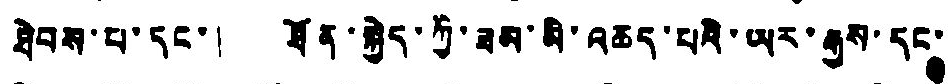ཐེབས་པ་དང་། ཐོན་སྐྱེད་ཀྱི་ཟམ་མི་འཆད་པའི་ཡར་རྒྱས་དང་
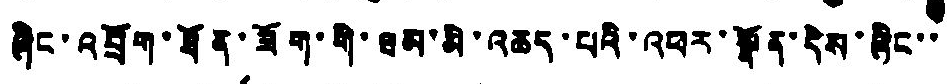ཞིང་འབྲོག་ཐོན་ཟོག་གི་ཟམ་མི་འཆད་པའི་འཕར་སྣོན་དེས་ཞིང་་
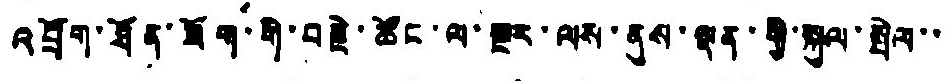འབྲོག་ཐོན་ཟོག་གི་བརྗེ་ཚོང་ལ་སྔར་ལས་ནུས་སྡན་གྱི་སྐྱལ་སྤེལ་་
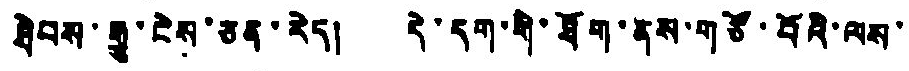ཐེབས་རྒྱུ་ངེས་ཅན་རེད། དེ་དག་གི་ཐོག་ནས་གཙོ་བོའི་ལས་
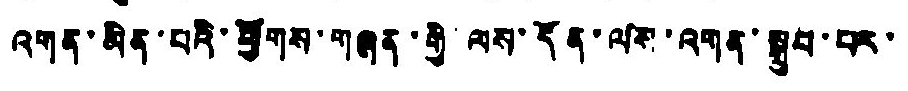འགན་མིན་པའི་ཕྱོགས་གཞན་གྱི ལས་དོན་ལས་འགན་སྒྲུབ་པར་་
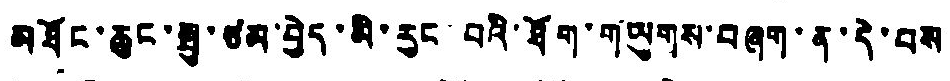མཐོང་ཆུང་སྤུ་ཙམ་བྱེད་མི་རུང་བའི་ཐོག་གཡུགས་བཞག་ན་དེ་བས
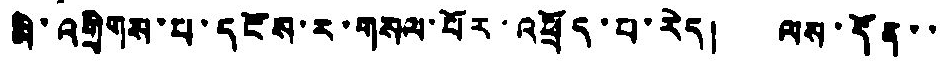མི་འགྲིགས་པ་དངོས་ར་གསལ་པོར་འཕྲོད་པ་རེད། ལས་དོན་་
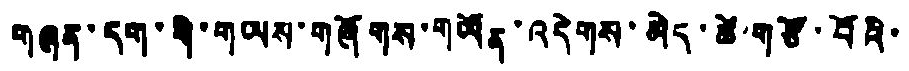གཞན་དག་གི་གཡས་གཞོགས་གཡོན་འདེགས་མེད་ཚེ་གཙོ་བོའི་་
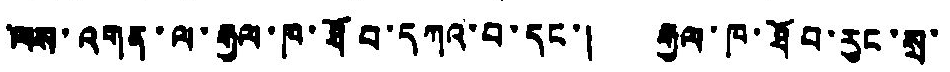ལས་འགན་ལ་རྒྱལ་ཁ་ཐོབ་དཀའ་བ་དང་། རྒྱལ་ཁ་ཐོབ་རུང་སྲ་
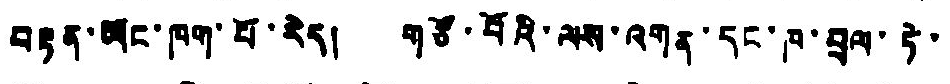བརྟན་ཡོང་ཁག་པོ་རེད། གཙོ་བོའི་ལས་འགན་དང་ཁ་བྲལ་ཏེ་
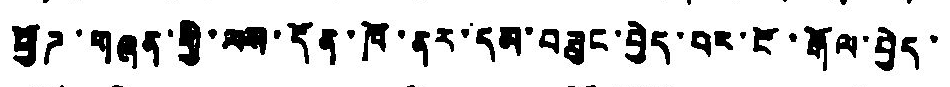ཕྱོཌ་གཞན་གྱི་ལས་དོན་ཁོ་ནར་དམ་བཟུང་བྱེད་པར་ངོ་རྒོལ་བྱེད་
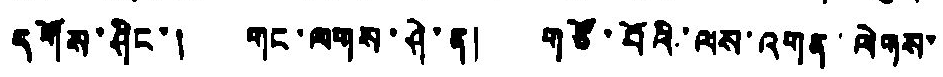དགོས་ཤིང་། གང་ལགས་ཤེ་ན། གཙོ་བོའི་ལས་འགན་ལེགས་
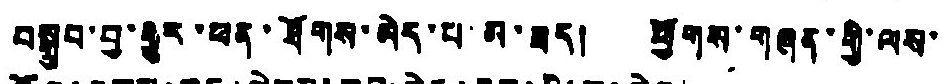བསྒྲུབ་བྱ་རྒྱུར་ཕན་ཐོགས་མེད་པ་མ་ཟད། ཕྱུགས་གཞན་གྱི་ལས་
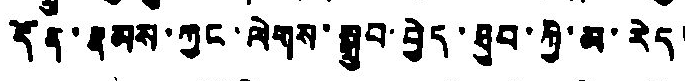དོན་རྣམས་ཀྱང་ལེགས་སྒྲུབ་བྱེད་ཐུབ་ཀྱི་མ་རེད།
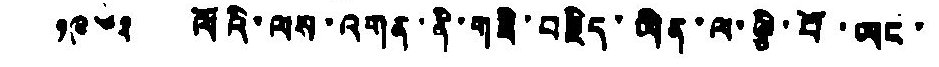༡༩༦༢ ལོའི་ལས་འགན་ནི་གཟི་བརྗིད་ཡིན་ལ་ལྕི་པོ་ཡང་
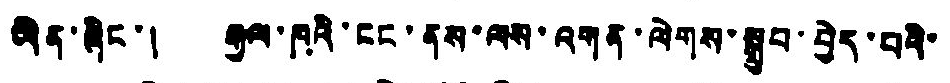ཡིན་ཞིང་། རྒྱལ་ཁའི་ངང་ནས་ལས་འགན་ལེགས་སྒྲུབ་བྱེད་པའི་
